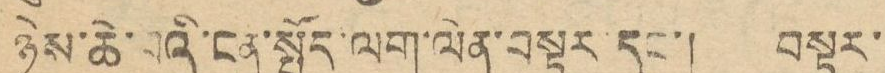ཉེས་ཆེ་བའི་ངན་སྦྱོད་ལག་ལེན་བསྟར་དང་། བསྟར་
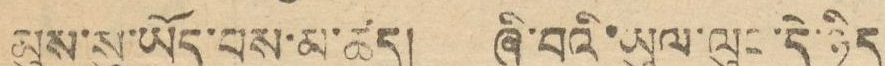མུས་སུ་ཡོད་པས་མ་ཚད། ཞི་བའི་ཡུལ་ལུང་དེ་ཉིད
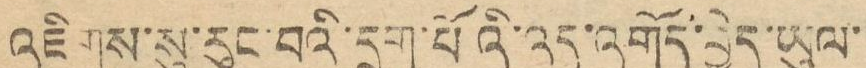འཇིགས་སུ་རུང་བའི་དྲག་པོའི་འདུ་འགོད་བྱེད་ཡུལ་
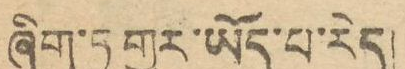ཞིག་ཏུ་གྱུར་ཡོད་པ་རེད།
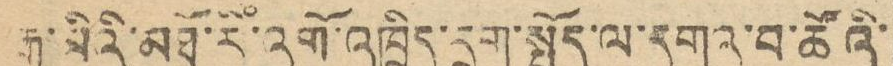རྒྱ་མིའི་མཐོ་རི་འགོ་འཁྲིད་དྲག་སྤྱོད་ལ་དགའ་བ་ཚོའི་
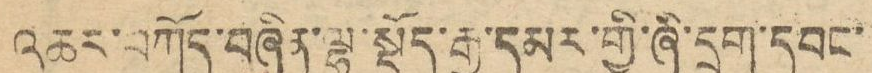འཆར་བཀོད་བཞིན་ལྷ་སྡོད་རྒྱ་དམར་གྱི་ཞི་དྲག་དབང་
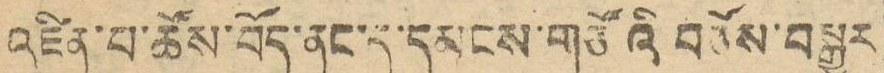འཛིན་པ་ཚོས་བོད་ནང་དུ་དམངས་གཙོའི་བཅོས་བསྒྱུར
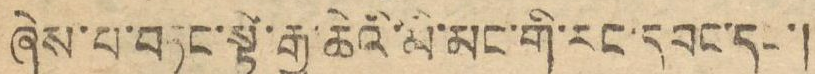ཞེས་པ་བཏང་སྟེ་རྒྱ་ཆེའི་མི་མང་གི་རང་དབང་དང་།
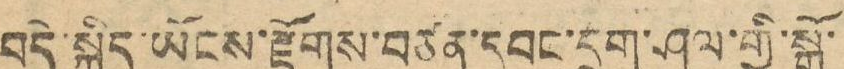བདེ་སྐྱིད་ཡོངས་རྫོགས་བཙན་དབང་དྲག་ཤུལ་གྱི་སྒོ་
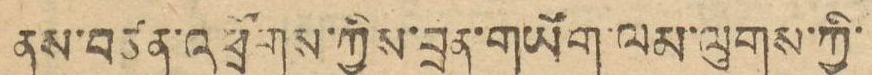ནས་བཙན་འཕྲོགས་ཀྱིས་བྲན་གཡོག་ལམ་ལུགས་ཀྱི་
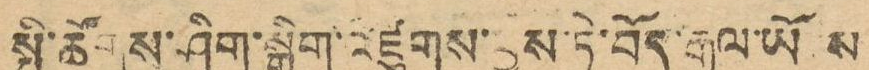སྤྱི་ཚོགས་ཤིག་སྒྲིག་འཛུགས་བྱས་ཏེ་བོད་རྒྱལ་ཡོངས་
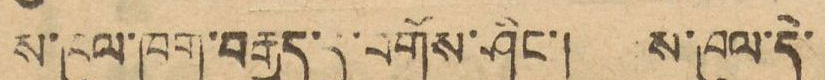ས་ཁུལ་ཁག་བརྒྱད་དུ་བགོས་ཤིང་། ས་ཁུལ་དེ་
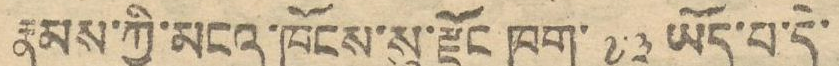རྣམས་ཀྱི་མངའ་ཁོངས་སུ་རྫོང་ཁག་ ༧༣ ཡོད་པ་དེ་
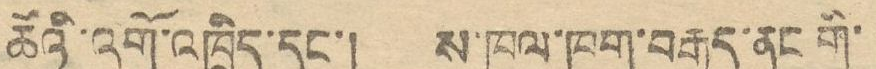ཚོའི་འགོ་འཁྲིད་དང་། ས་ཁུལ་ཁག་བརྒྱད་ནང གི་
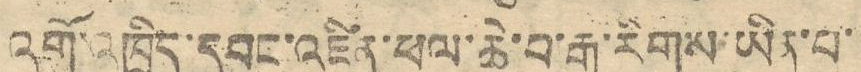འགོ་འཁྲིད་དབང་འཛིན་ཕལ་ཆེ་བ་རྒྱ་རིགས་ཡིན་པ་
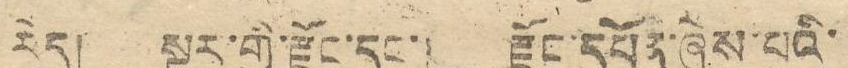རེད། སྔར་གྱི་རྫོང་དང་། རྫོང་དཔོན་ཞེས་པའི་
